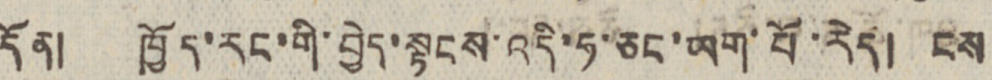དོན། ཁྱོད་རང་གི་བྱེད་སྟངས་འདི་ཧ་ཅང་ཡག་པོ་རེད། ངས
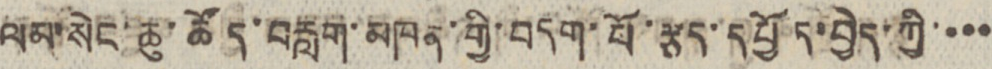ལམ་སེང་ཆུ་ཚོད་བརླག་མཁན་གྱི་བདག་པོ་རྩད་དཔྱོད་བྱེད་ཀྱི་་་་
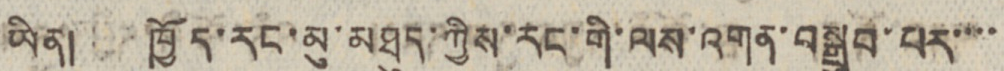ཡིན། ཁྱོད་རང་མུ་མཐུད་ཀྱིས་རང་གི་ལས་འགན་བསྒྲུབ་པར་་་་
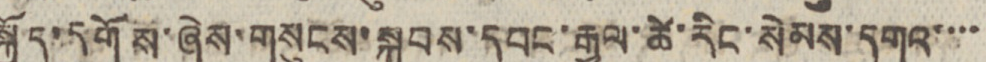སྐྱོད་དགོས་ཞེས་གསུངས་སྐབས་དབང་རྒྱལ་ཚེ་རིང་སེམས་དགའ་་་་
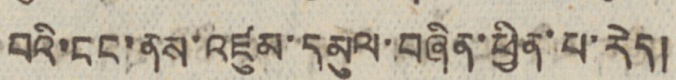བའི་ངང་ནས་འཛུམ་དམུལ་བཞིན་ཕྱིན་པ་རེད།
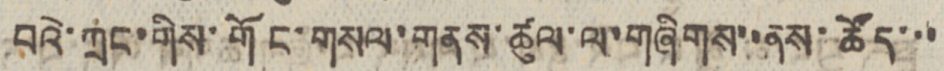བའེ་ཀྲང་གིས་གོང་གསལ་གནས་ཚུལ་ལ་གཞིགས་་ནས་ཚོད་་་
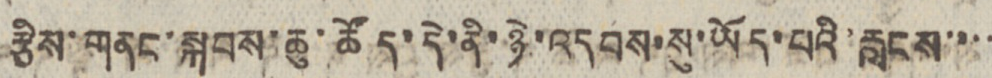རྩིས་གནང་སྐབས་ཆུ་ཚོད་དེ་ནི་ཉེ་འདབས་སུ་ཡོད་པའི་རླངས་་་་
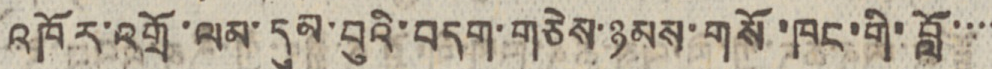འཁོར་འགྲོ་ལམ་དུམ་བུའི་བདག་གཅེས་ཉམས་གསོ་ཁང་གི་བློ་་་་
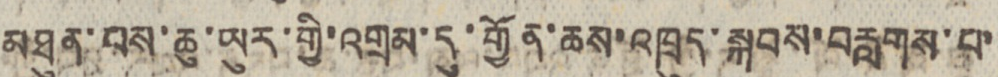མཐུན་པས་ཆུ་ཡུར་གྱི་འགྲམ་དུ་གྱོན་ཆས་འཁྲུད་སྐབས་བརླགས་པ་
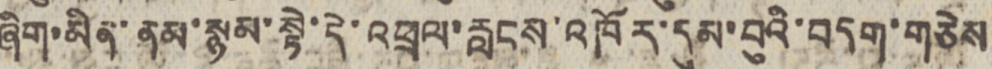ཞིག་མིན་ནམ་སྙམ་སྟེ་དེ་འཕྲལ་རླངས་འཁོར་དུམ་བུའི་བདག་གཅེས
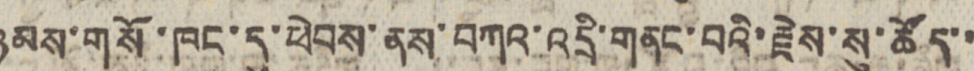ཉམས་གསོ་ཁང་དུ་ཕེབས་ནས་བཀའ་འདྲི་གནང་བའི་རྗེས་སུ་ཚོད་་
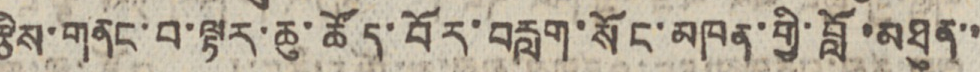རྩིས་གནང་བ་ལྟར་ཆུ་ཚོད་བོར་བརླག་སོང་མཁན་གྱི་བློ་མཐུན་་
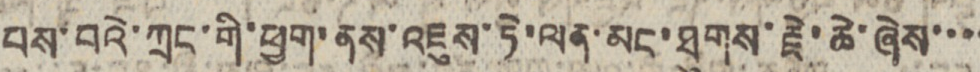པས་བའེ་ཀྲང་གི་ཕྱག་ནས་འཇུས་ཏེ་ལན་མང་ཐུགས་རྗེ་ཆེ་ཞེས་་་་
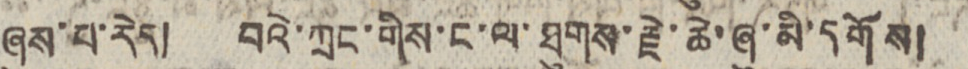ཞུས་པ་རེད། བའེ་ཀྲང་གིས་ང་ལ་ཐུགས་རྗེ་ཆེ་ཞུ་མི་དགོས།
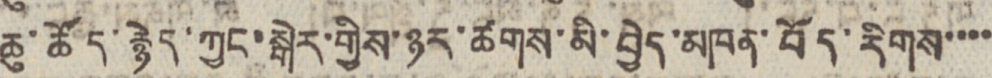ཆུ་ཚོད་རྙེད་ཀྱང་སྒེར་གྱིས་ཉར་ཚགས་མི་བྱེད་མཁན་བོད་རིགས་་་་
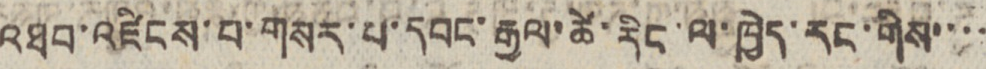འཐབ་འཛིངས་པ་གསར་པ་དབང་རྒྱལ་ཚེ་རིང་ལ་ཁྱེད་རང་གིས་་་་
